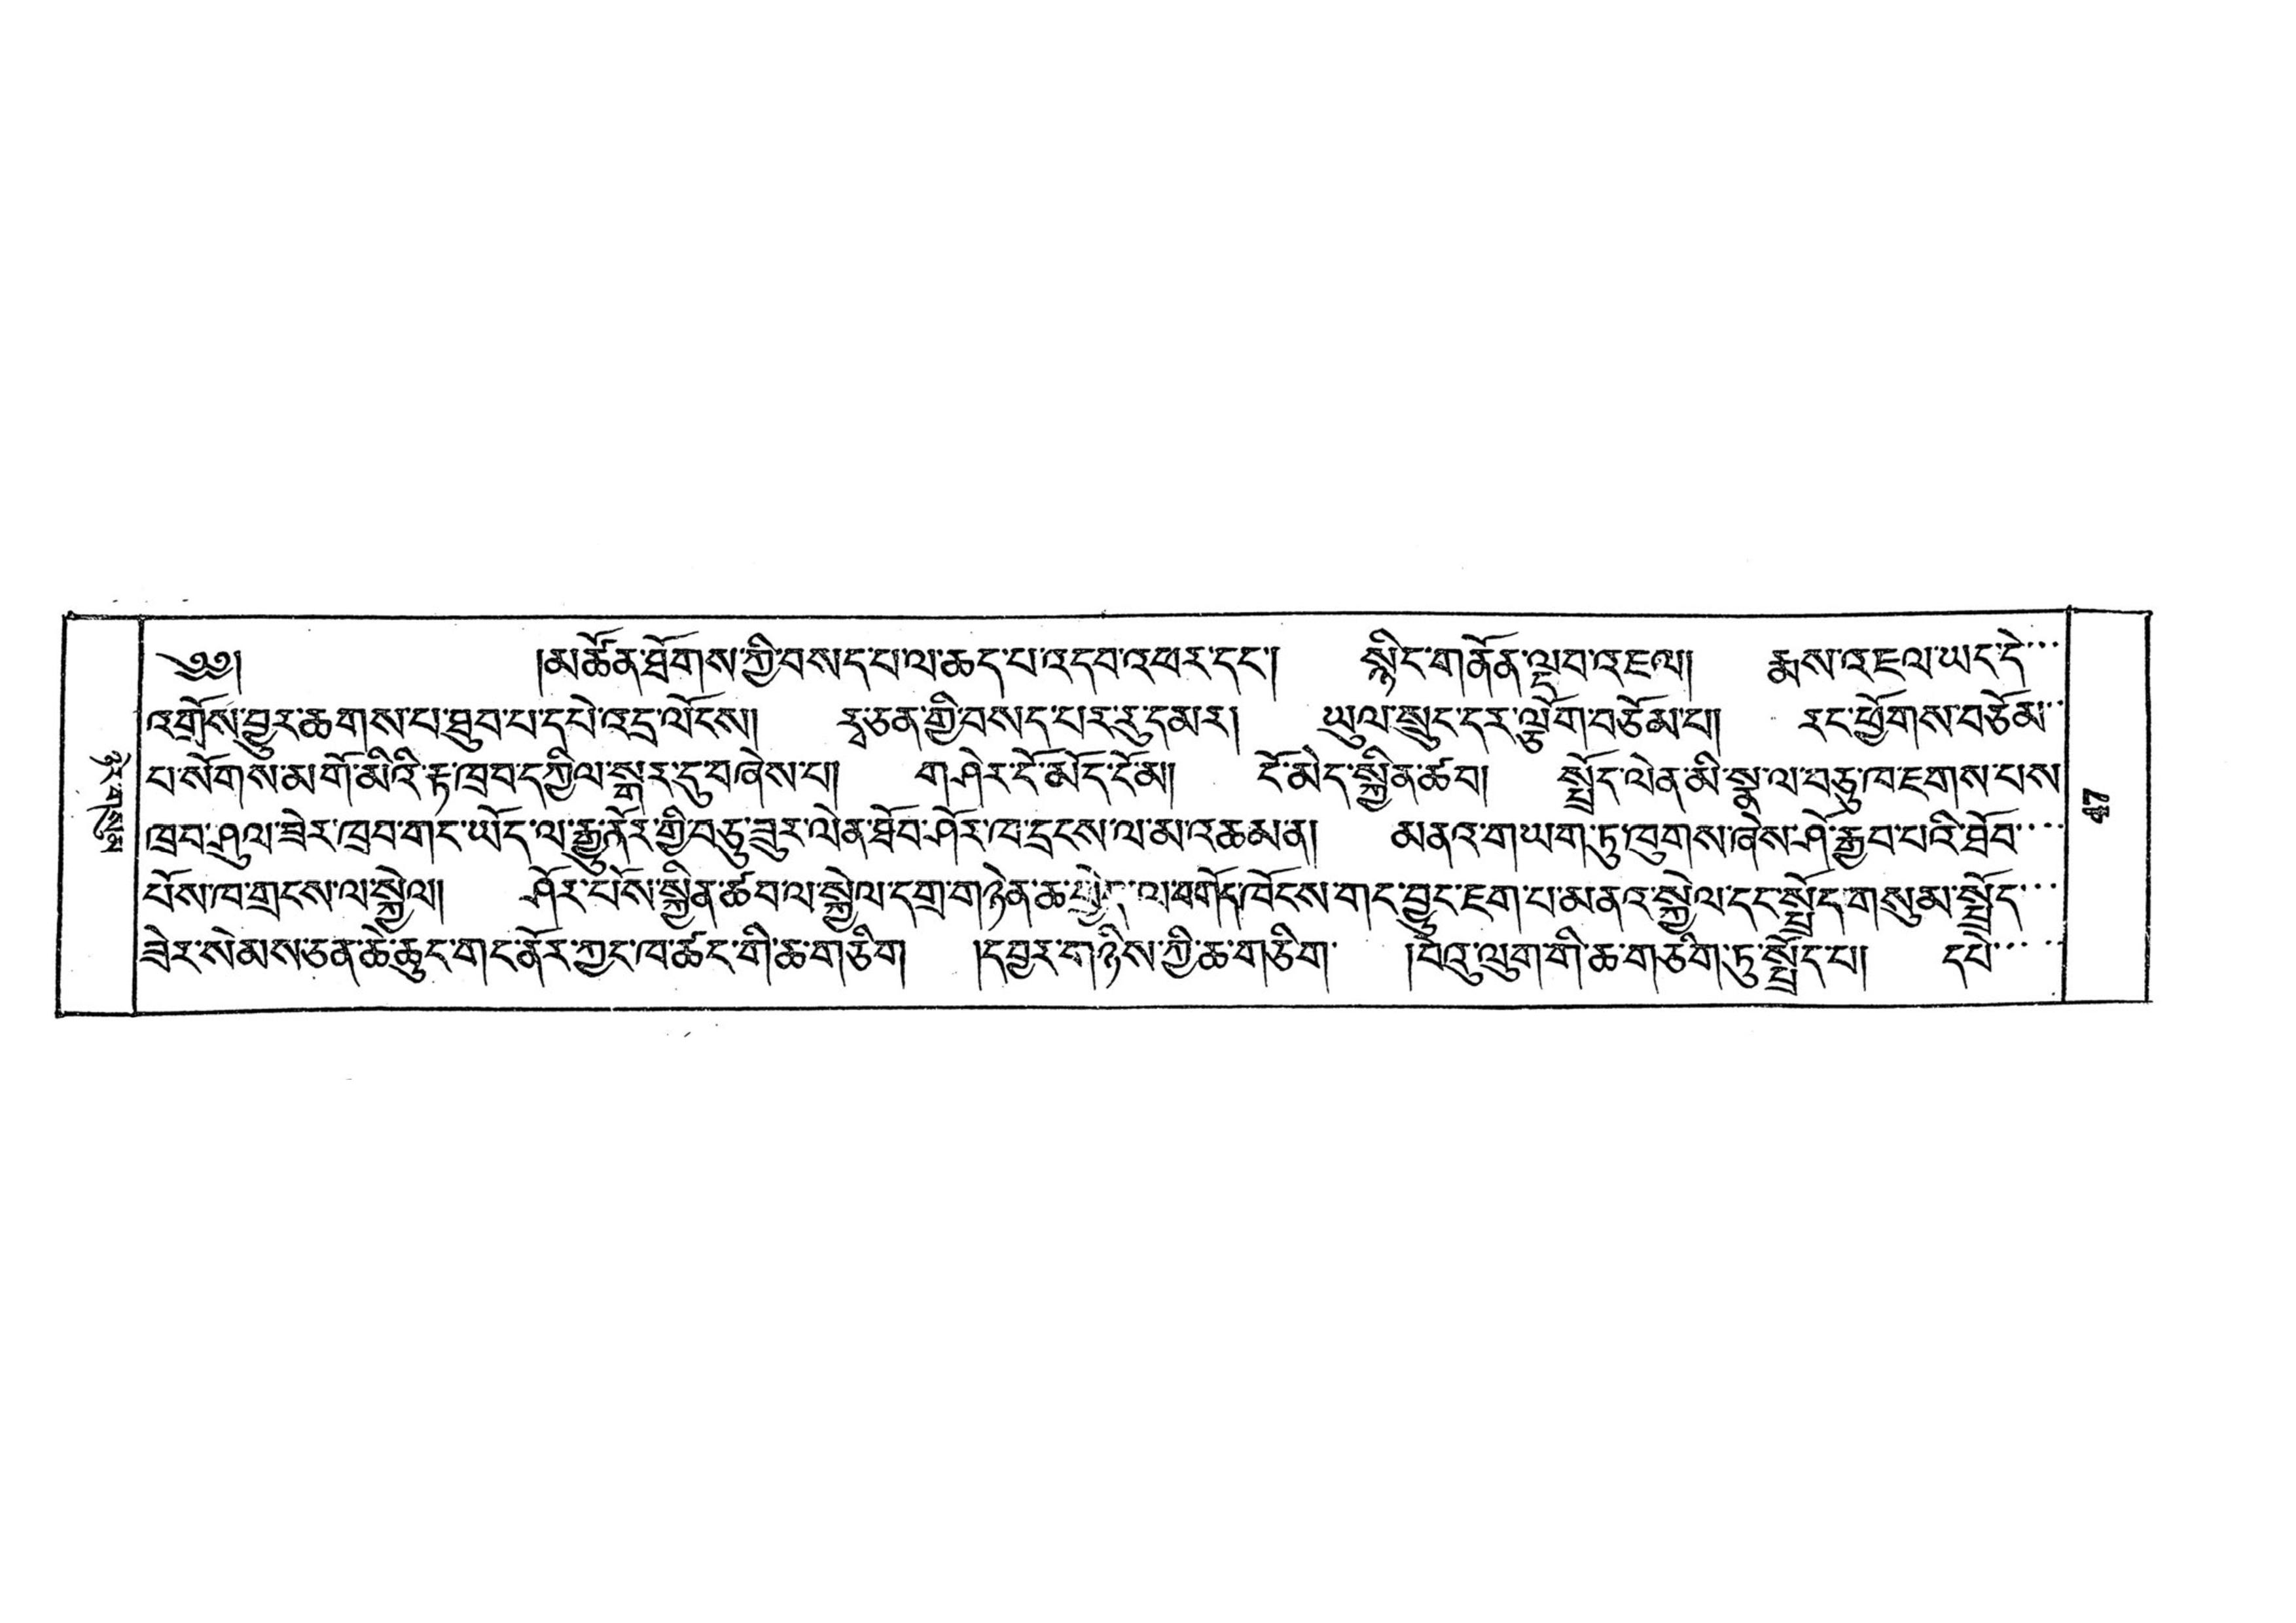ཉེར་གསུམ་
༄༅། །མཚོན་ཐོགས་ཀྱི་བསད་པ་ལ་ཆད་པ་འདབ་འཕར་དང་། སྙིང་གནོན་ལྡབ་འཇལ། རྨས་འཇལ་ཡད་དེ་་་
འགྲོས་བྱུར་ཆགས་པ་ཐུབ་པ་དཔེ་འདྲ་ལོངས། རྭ་ཅན་གྱི་བསད་པར་རུ་དམར། ཡུལ་སྲུང་དར་ལྕོག་བཅོམ་པ། རང་ཕྱོགས་བཅོམ་་
པ་སོགས་མགོ་མིའི་རྟ་ཁྲབ་དཀྱིལ་སྒར་དུ་བཞེས་པ། གཤེར་ངོ་མོད་ངོ་མ། ངོ་མེད་སྐྱིན་ཚབ། སྤྲོད་ལེན་མི་སྣ་ལ་བཅུ་ཁ་ཇགས་པས་
ཁྲབ་ཤུལ་ཟེར་ཁྲབ་གང་ཡོད་ལ་རྒྱུ་ནོར་གྱི་བཅུ་ཟུར་ལེན་ཐོབ་ཤོར་ལ་དྲངས་ལ་མ་འཆམ་ན། མནའ་གཡག་ཏུ་ཁུགས་ཞེས་ཤོ་རྒྱབ་པའི་ཐོབ་་་་
པོས་ཁ་གྲངས་ལ་སྐྱེལ། ཤོར་པོས་སྐྱིན་ཚབ་ལ་སྐྱེལ་དགྲ་གཉེན་ཆ་ཕྱེད་ལ་བགོད་ཁོངས་གང་བྱུང་ཇག་པ་མནའ་སྐྱེལ་དང་སྤྲོད་གསུམ་སྤྲོད་་་
ཟེར་སེམས་ཅན་ཆེ་ཆུང་གང་ནོར་ཀྱང་ཁ་ཚང་གི་ཆ་གཅིག །དབྱར་གཉིས་ཀྱི་ཆ་གཅིག་ །བེའུ་ལུག་གི་ཆ་གཅིག་ཏུ་སྤྲོད་པ། དཔེ་་་་་
